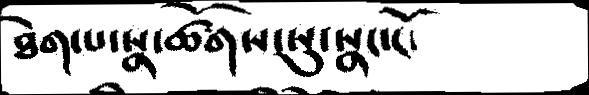ཐེག་པ་སྣ་ཚོགས་སུ་སྣང་ངོ་
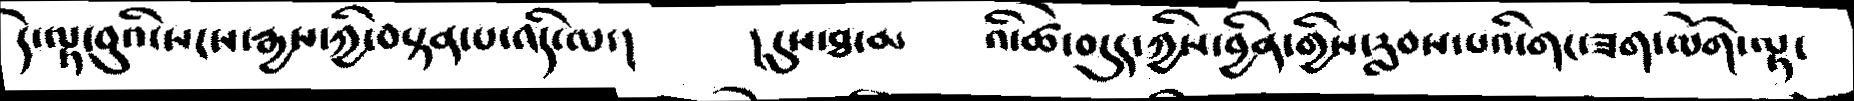དེ་ལྟ་བུའི་སངས་རྒྱས་ཀྱི་བསྟན་པ་འདི་ལ་།     །དུས་ཐ་མ  འི་ཚེ་བདུད་ཀྱིས་བྱིན་གྱིས་རླབས་པའི་གང་ཟག་ལོག་ལྟ་
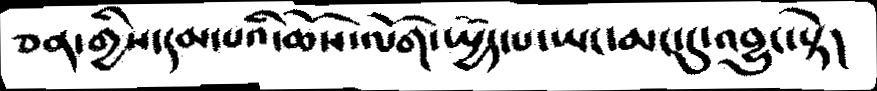ཅན་གྱིས་དམ་པའི་ཆོས་ལོག་པ་ཡྱོད་པ་ཡང་མང་དུ་འབྱུང་སྟེ།
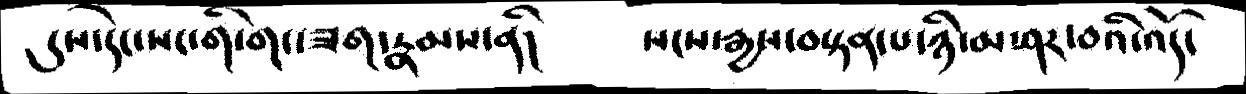དུས་དེང་སང་གི་གང་ཟག་རྣམས་ནི།       སངས་རྒྱས་བསྟན་པ་ཉི་མ་ཤར་བའི་འོད་
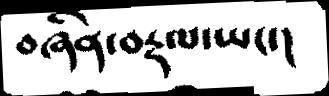བཞིན་བརྡལ་ཡང་།
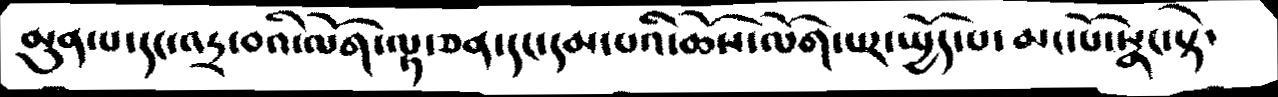མུན་པ་དང་འདྲ་བའི་ལོག་ལྟ་ཅན་དང་དམ་༷པའི་ཆོས་ལོག་པར་ཡྱོད་པ་མང་པོ་སྣང་སྟེ་
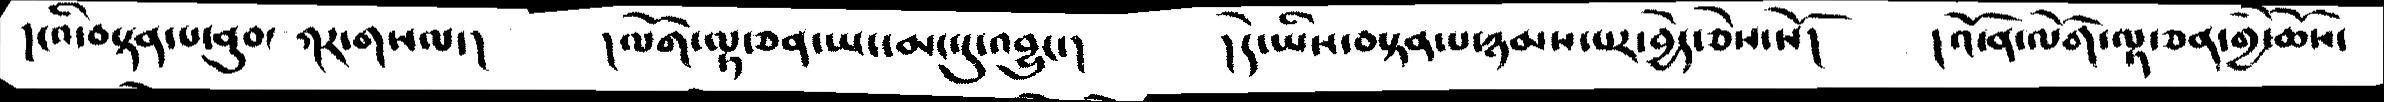།ངའི་བསྟན་པ་ནུབ་ ཀར་གསལ་།        །ལོག་ལྟ་ཅན་ཡང་མང་དུ་འབྱུང་།     །དེ་ཡིས་བསྟན་པ་ཉམས་པར་བྱེད་ཅེས་སོ།    །འོ་ན་ལོག་ལྟ་ཅན་གྱི་ཆོས་
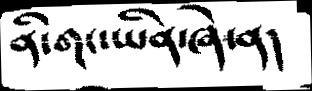ནི་གང་ཡིན་ཞེ་ན།
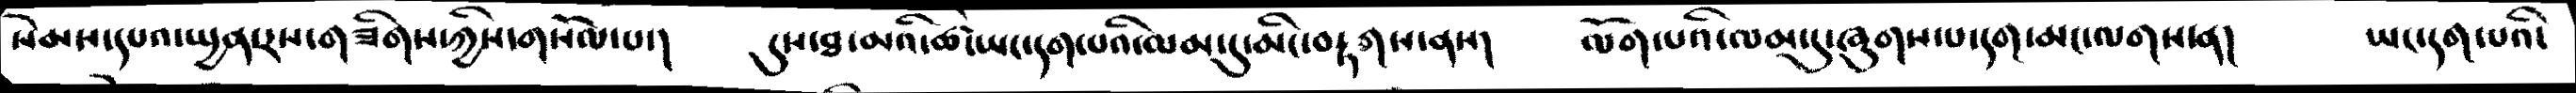སེམས་དཔའ་ཡྱན་རས་གཟིགས་ཀྱིས་གསོལ་པ་།   དུས་ཐ་མའི་ཚེ་ཡང་དག་པའི་ལམ་དུ་མིང་བརྟགས།   ལོག་པའི་ལམ་དུ་ཞུགས་པ་དག་མང་ལགས་ན།  ཡང་དག་པའི་
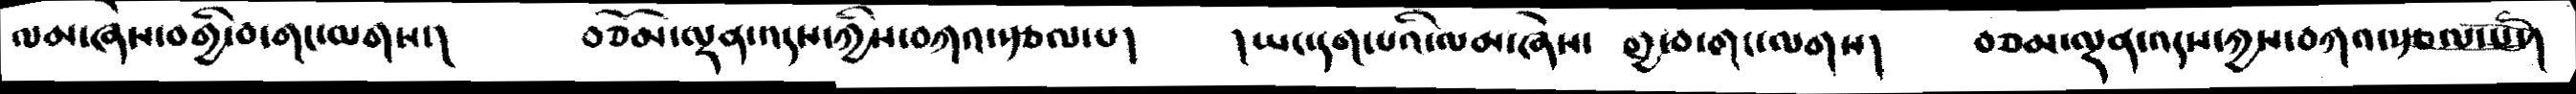ལམ་ཞེས་བགྱི་བ་གང་ལགས་།    བཅོམ་ལྡན་འདས་ཀྱིས་བཀའ་རྩལ་པ།    །ཡང་དག་པའི་ལམ་ཞེས་ གྱ་བ་གང་ལགས།   བཅམ་ལྡན་འདས་ཀྱས་བཀའ་རྩལ་པ་།
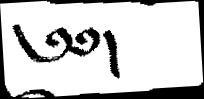༅༅།
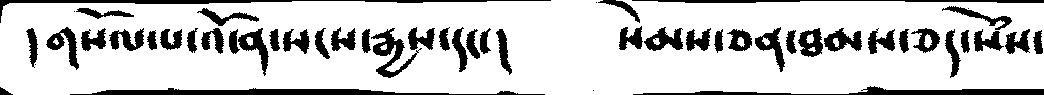།གསོལ་པ་འོ་ན་སངས་རྒྱས་དང་།    སེམས་ཅན་ཐམས་ཅད་སེཾས་
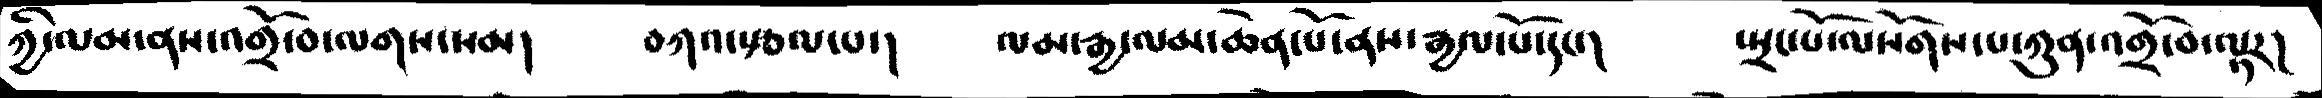ཀྱི་ལམ་ནས་འགྲོ་བ་ལགས་སམ།   བཀའ་རྩལ་པ་།    ལམ་རྒྱ་ལམ་ཆེན་པོ་ནས་རྒྱལ་པོ་དང་།        སྤྲང་པོ་ལསོགས་པ་ཀུན་འགྲོ་བ་ལྟར།
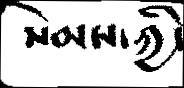སེམས་ཀྱི་
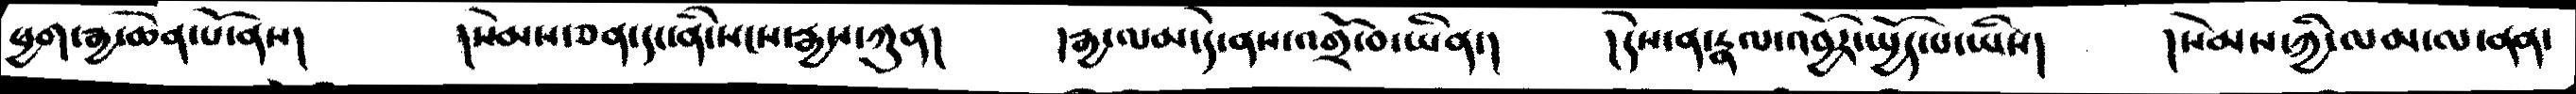ཕྱག་རྒྱ་ཆེན་པོ་ནས།    །སེམས་ཅན་དང་ནི་སངས་རྒྱས་ཀུན།    །རྒྱ་ལམ་དེ་ནས་འགྲོ་བ་ཡིན་།     །དེས་ན་རྣལ་འབྱོར་ཡྱོད་པ་ཡིས།     །སེམས་ཀྱི་ལམ་ལ་ནན་
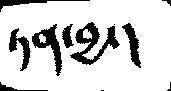ཏན་བྱ་།
